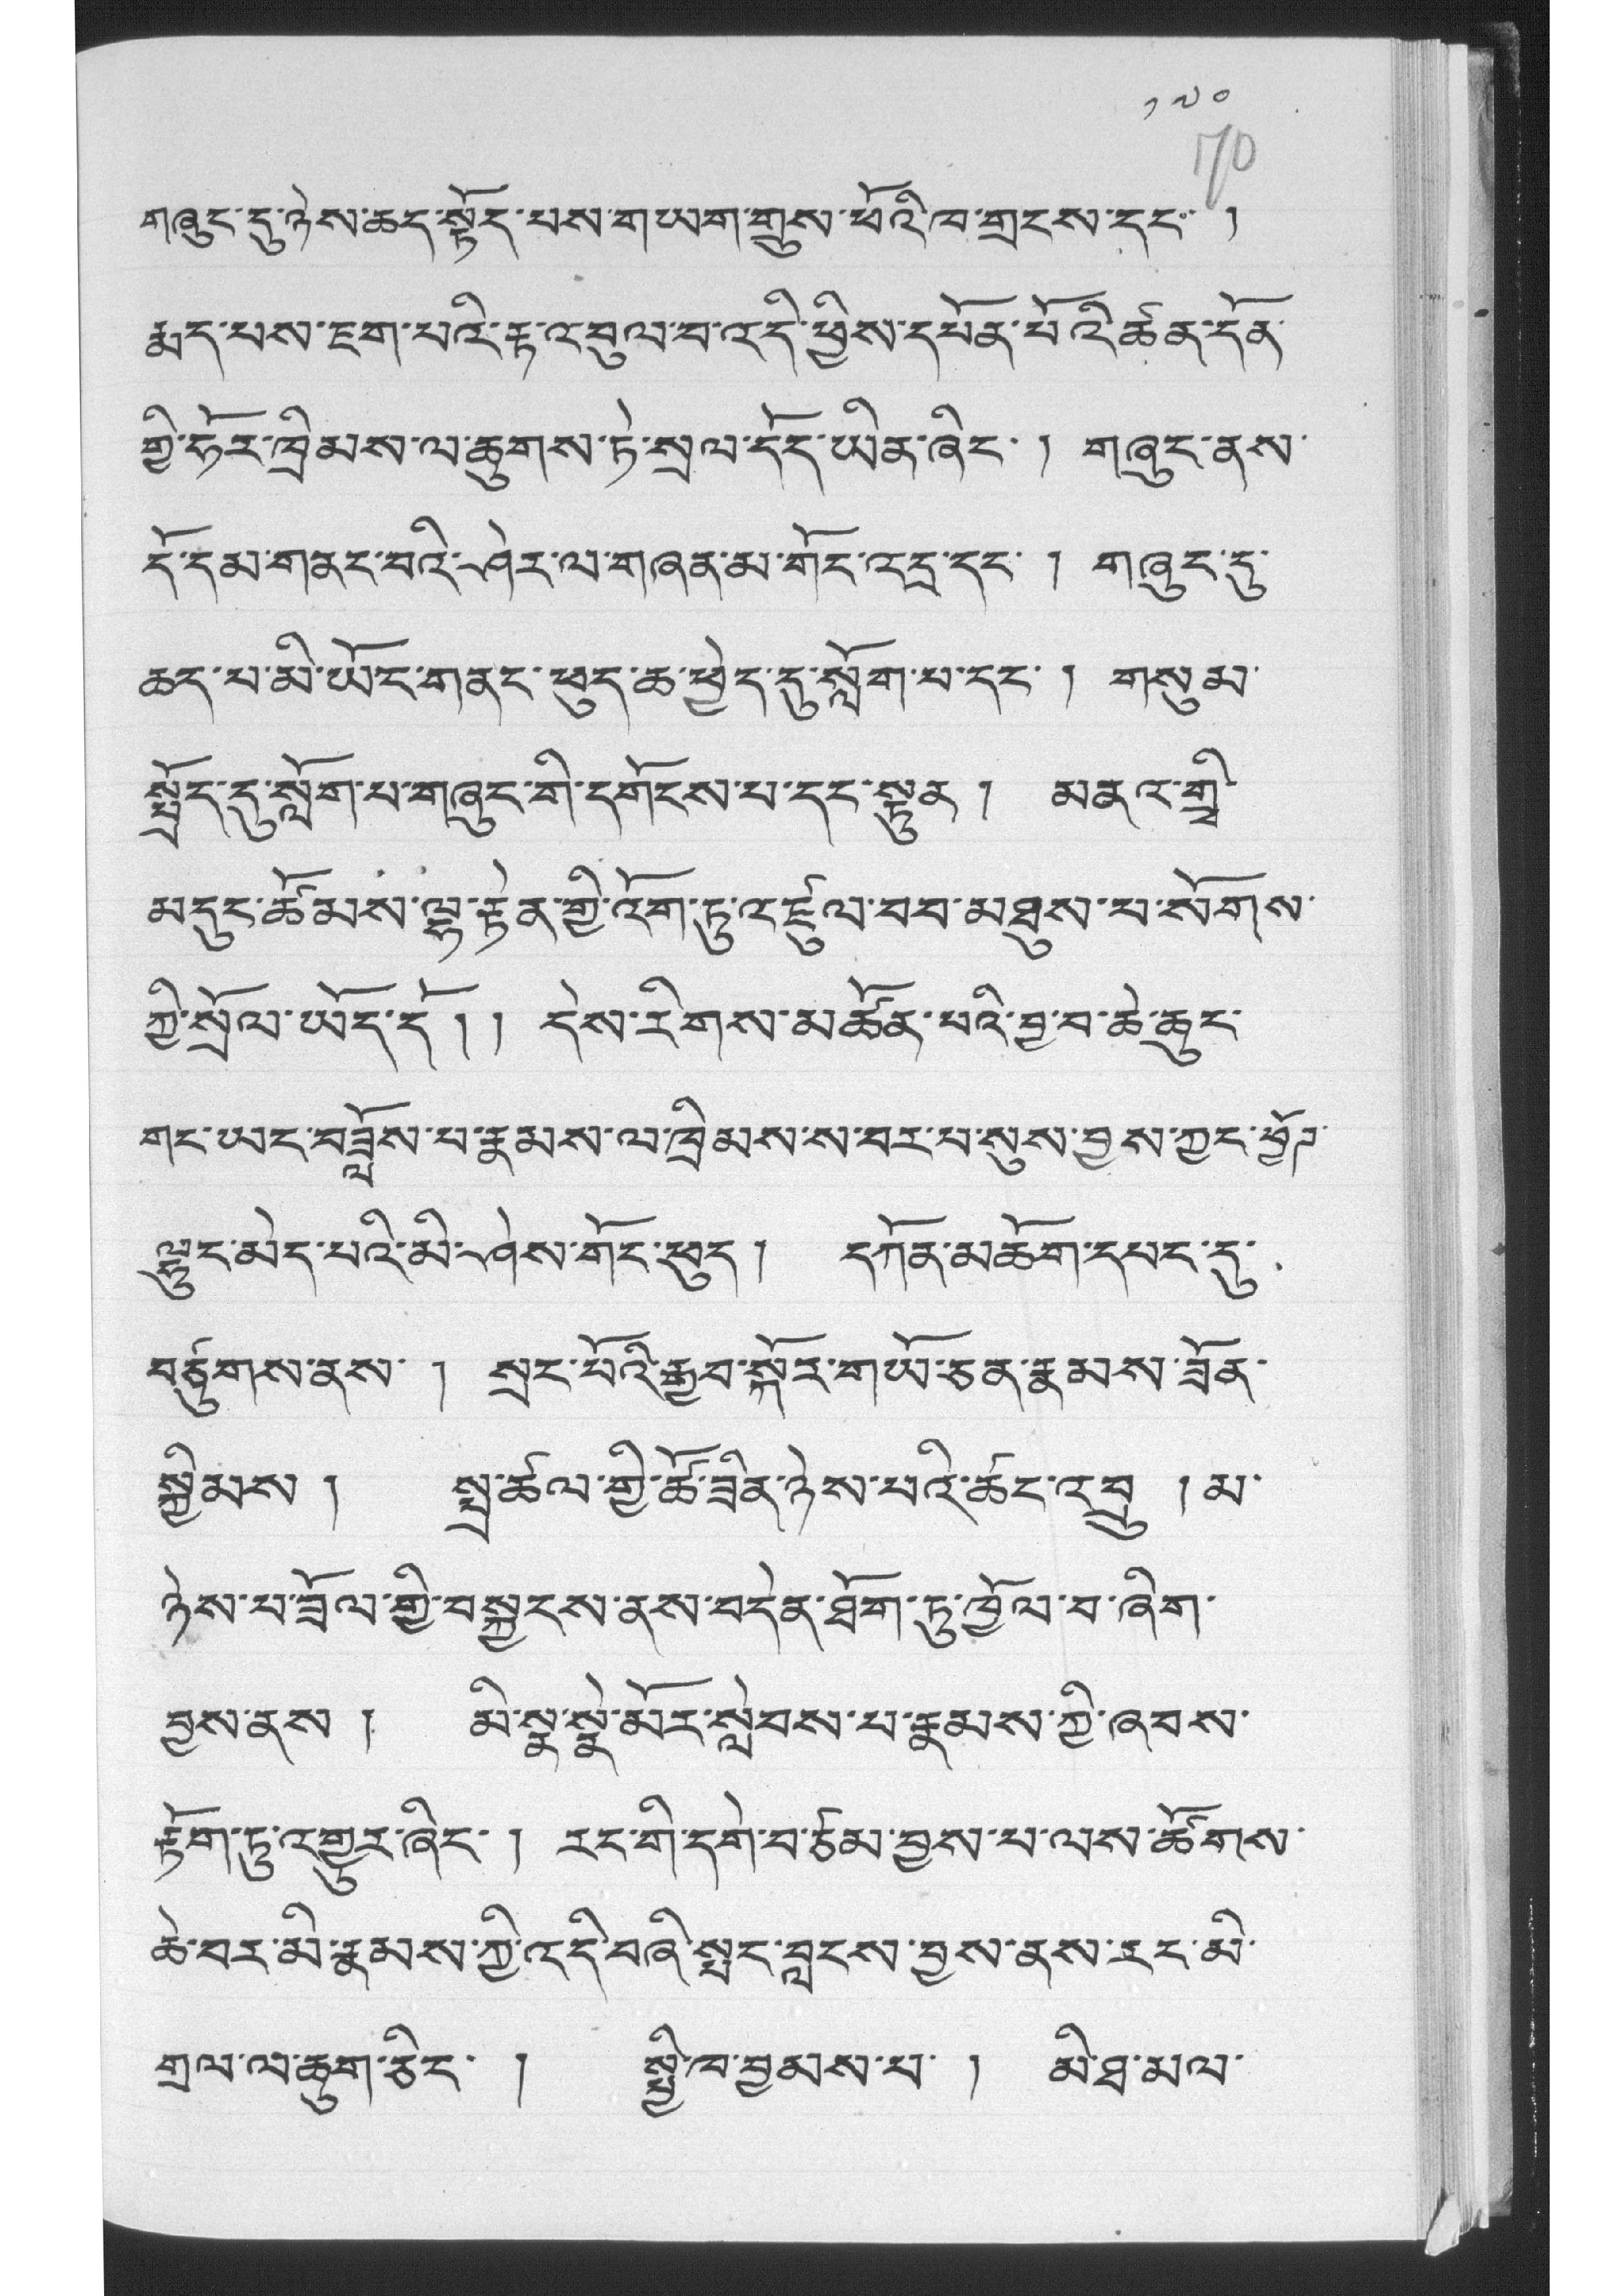༡༧༠
གཞུང་དུ་ཉེས་ཆད་སྟོད་པས་གཡག་གྲུས་ཕོའི་ཁ་གྲངས་དང་ །
རྨད་པས་ཇག་པའི་རྟ་འབུལ་བ་འདི་ཕྱིས་དཔོན་པོའི་ཚན་དོན་
གྱི་ཧོར་ཁྲིམས་ལ་ཆུགས་ཏེ་སྲལ་དོད་ཡིན་ཞིང་ ། གཞུང་ནས་
དོ་དམ་གནང་བའི་ཤེར་ལ་གཞན་མ་གོང་འདྲ་དང་ ། གཞུང་དུ་
ཆད་པ་མི་ཡོང་གནང་ཕུད་ཆ་ཕྱེད་དུ་སློག་པ་དང་ ། གསུམ་
སྤྲོད་དུ་སློག་པ་གཞུང་གི་དགོངས་པ་དང་སྟུན ། མནའ་གྲྭི་
མདུང་ཚོམས་ལྷ་རྟེན་གྱི་འོག་ཏུ་འཛུལ་བབ་མཐུས་པ་སོགས་
ཀྱི་སྲོལ་ཡོད་དོ།། དེས་རིགས་མཚོན་པའི་བྱ་བ་ཆེ་ཆུང་
གང་ཡང་བཟློས་པ་རྣམས་ལ་ཁྲིམས་ས་བར་པ་སུས་བྱས་ཀྱང་ཕྱོཊ་
ལྷུང་མེད་པའི་མི་ཤེས་གོང་ཕུད། དཀོན་མཆོག་དཔང་དུ་
བཙུགས་ནས་ ། སྲང་པོའི་རྒྱབ་སྐོར་གཡོ་ཅན་རྣམས་ཟོན་
སྐྱིམས ། སྤྲ་ཚལ་གྱི་ཚོ་ཟིན་ཉེས་པའི་ཚང་འབྲུ ། མ་
ཉེས་པ་ཟོལ་གྱི་བསྐྱངས་ནས་བདེན་ཐོག་ཏུ་ཁྱོལ་བ་ཞིག་
བྱས་ནས ། མི་སྣ་སྣེ་མོར་སླེབས་པ་རྣམས་ཀྱི་ཞབས་
རྟོག་ཏུ་འགྱུར་ཞིང་ ། རང་གི་དགེ་བ་ཙམ་བྱས་པ་ལས་ཚོགས་
ཆེ་བར་མི་རྣམས་ཀྱི་འདི་བཞི་སྤང་བླངས་བྱས་ནས་རང་མི་
གྲལ་ལ་ཆུག་ཅིང་ ། སྤྱི་ཁ་བྱམས་པ་ ། མི་ཐ་མལ་
